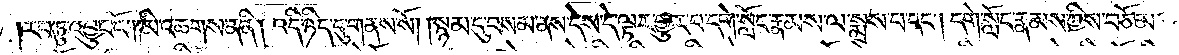།རབ་ཏུ་འབྱུང་ངོ༌། །མི་འཆགས་ན་ནི། འདི་ཉིད་དུ་གནས་སོ། །སྙམ་དུ་བསམ་ནས་དེས་དེ་ལྟར་གྱུར་པ་དགེ་སློང་རྣམས་ལ་སྨྲས་པ་དང༌། དགེ་སློང་རྣམས་ཀྱིས་བཅོམ་
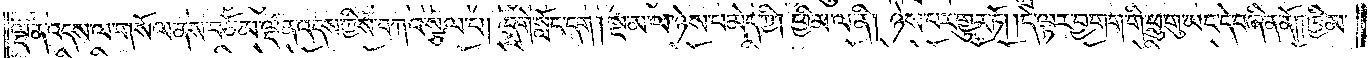ལྡན་འདས་ལ་གསོལ་ནས་བཅོམ་ལྡན་འདས་ཀྱིས་བཀའ་སྩལ་པ། དགེ་སློང་དག །སྔ་མ་ལ་ཉེས་པ་མེད་ཀྱི། ཕྱི་མ་ལ་ནི། ཉེས་པར་གྱུར་ཏོ། །དེ་ལྟར་བྱ་གག་གི་ཕྲུ་གུ་ཡང་དེ་བཞིན་ནོ། །ཁྱིམ་
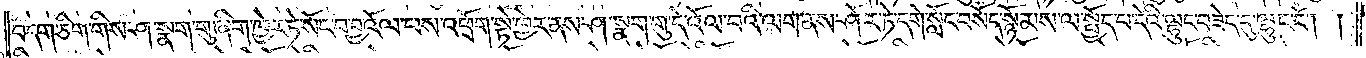བདག་ཅིག་གིས་ཤ་སྣག་གུ་ཞིག་ཁྱེར་ཏེ་སོང་བ་བྱ་འོལ་པས་འཕྲོག་སྟེ་ཁྱེར་ནས་ཤ་སྣག་གུ་དེ་འོལ་བའི་ལག་ནས་ཤོར་ཏེ་དགེ་སློང་བསོད་སྙོམས་ལ་སྤྱོད་པ་དེའི་ལྷུང་བཟེད་དུ་ལྷུང་ངོ༌། །
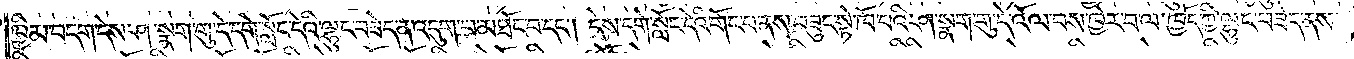ཁྱིམ་བདག་དེས་ཤ་སྣག་གུ་དེ་དགེ་སློང་དེའི་ལྷུང་བཟེད་ན་འདུག་པ་མཐོང་བ་དང༌། དེས་དགེ་སློང་དེའི་གོང་པ་ནས་བཟུང་སྟེ་ཁོ་པའི་ཤ་སྣག་གུ་དེ་འོལ་བས་ཁྱེར་བ་ལ་ཁྱོད་ཀྱི་ལྷུང་བཟེད་ནས་
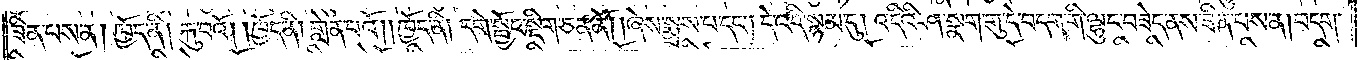ཟིན་པས་ན། ཁྱོད་ནི། རྐུ་བའོ། །ཁྱོད་ནི། གླེན་པའོ། །ཁྱོད་ནི། དགེ་སྦྱོང་སྡིག་ཅན་ནོ། །ཞེས་སྨྲས་པ་དང༌། དེ་འདི་སྙམ་དུ། འདིའི་ཤ་སྣག་གུ་དེ་བདག་གི་ལྷུང་བཟེད་ནས་ཟིན་པས་ན། བདག་
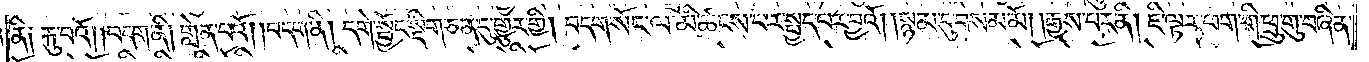ནི༑ རྐུ་བའོ། །བདག་ནི། གླེན་པའོ། །བདག་ནི། དགེ་སྦྱོང་སྡིག་ཅན་དུ་གྱུར་གྱི། བདག་སོང་ལ་མི་ཚངས་པར་སྤྱད་པར་བྱའོ། །སྙམ་དུ་བསམ་མོ། །རྒྱས་པར་ནི། ཇི་ལྟར་ཕག་གི་ཕྲུ་གུ་བཞིན་
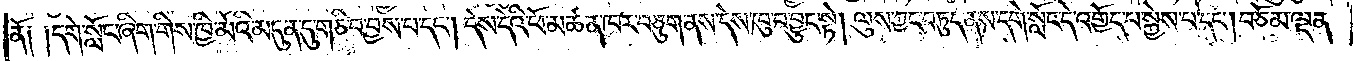ནོ༑ །དགེ་སློང་ཞིག་གིས་ཁྱི་མོའི་མདུན་དུ་གཅི་བ་བྱས་པ་དང༌། དེས་དེའི་ཕོ་མཚན་ཁར་བཅུག་ནས་དེས་ཁུ་བ་བྱུང་སྟེ། ལུས་ཀྱང་བཏུད་ནས་དགེ་སློང་དེ་འགྱོད་པ་སྐྱེས་པ་དང༌། བཅོམ་ལྡན་
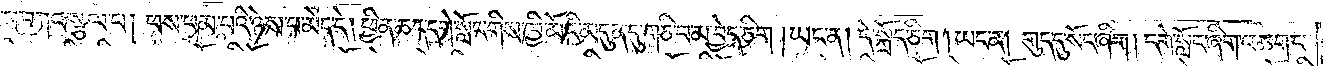འདས་ཀྱིས་བཀའ་སྩལ་པ། ཕས་ཕམ་པའི་ཉེས་པ་མེད་དེ། ཕྱིན་ཆད་དགེ་སློང་གིས་ཁྱི་མོའི་མདུན་དུ་གཅི་བ་མ་བྱེད་ཅིག །ཡང་ན། དེ་སྐྲོད་ཅིག །ཡང་ན། གུད་དུ་སོང་ཞིག །དགེ་སློང་ཞིག་འཆག་པ་
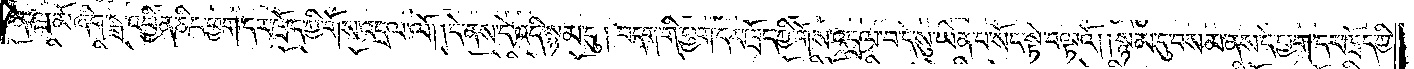ན་ཝ་མོ་ཞིག་སྒྲ་འབྱིན་ཅིང་ཕྱག་དར་ཁྲོད་ཀྱི་གོས་འདྲལ་ལོ། །དེ་ནས་དེ་འདི་སྙམ་དུ། བདག་གི་ཕྱག་དར་ཁྲོད་ཀྱི་གོས་འདྲལ་བ་དེ་སུ་ཡིན་པ་སོང་སྟེ་བལྟའོ། །སྙམ་དུ་བསམ་ནས་དེ་ཕྱག་དར་ཁྲོད་ཀྱི་
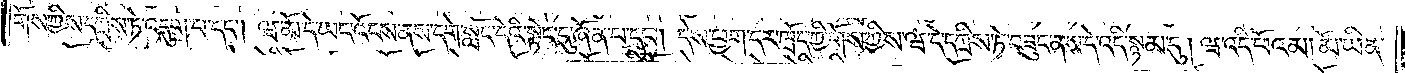གོས་ཀྱིས་དཀྲིས་ཏེ་འདུག་པ་དང༌། ཝ་མོ་དེ་ཡང་འོངས་ནས་དགེ་སློང་དེའི་སྟེང་དུ་ཞོན་པ་དང༌། དེས་ཕྱག་དར་ཁྲོད་ཀྱི་གོས་ཀྱིས་ཝ་དེ་དཀྲིས་ཏེ་བཟུང་ནས་དེ་འདི་སྙམ་དུ། ཝ་འདི་ཕོའམ། མོ་ཡིན་
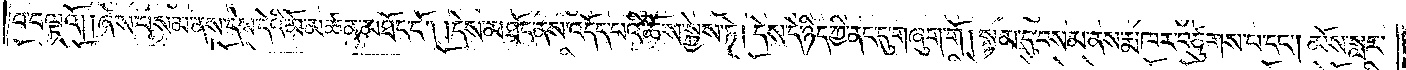པ་བལྟའོ། །ཞེས་བསམ་ནས་དེས་དེའི་མོ་མཚན་མཐོང་ངོ༌། །དེས་མཐོང་ནས་འདོད་པའི་ཆོས་སྐྱེས་ཏེ། དེས་དེ་ཉིད་ཀྱི་ནང་དུ་གཞུག་གོ །སྙམ་དུ་བསམ་ནས་རྨ་ཁར་བཙུགས་པ་དང༌། མོས་སླར་
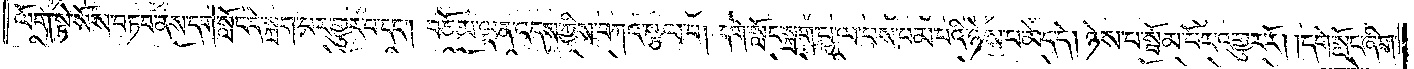ལོག་སྟེ་སོས་བཏབ་ནས་དགེ་སློང་དེ་སྐྲག་པར་གྱུར་པ་དང༌། བཅོམ་ལྡན་འདས་ཀྱིས་བཀའ་སྩལ་པ། དགེ་སློང་སྐྲག་པ་ལ་ཕས་ཕམ་པའི་ཉེས་པ་མེད་དེ། ཉེས་པ་སྤོམ་པོར་འགྱུར་རོ། །དགེ་སློང་ཞིག་
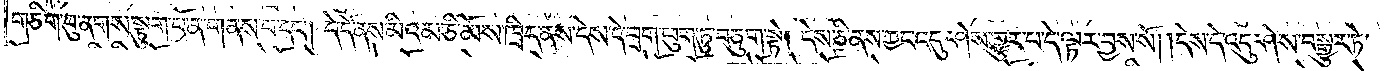གཅིག་བུ་ནགས་སྟུག་པོ་ན་གནས་པ་དང༌། དེ་དེ་ནས་མིའམ་ཅི་མོས་ཁྲིད་ནས་དེས་དེ་བྲག་ཕུག་ཏུ་བཅུག་སྟེ། དེས་ཅི་ནས་ཀྱང་འདུ་ཤེས་གྱུར་པ་དེ་ལྟར་བྱས་སོ། །དེས་དེ་འདུ་ཤེས་བསྒྱུར་ཏེ་
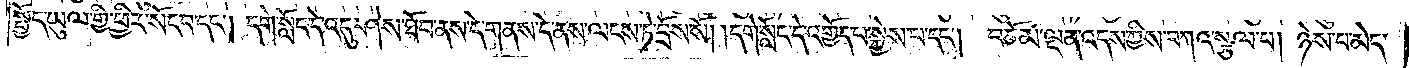སྤྱོད་ཡུལ་གྱི་ཕྱིར་སོང་བ་དང༌། དགེ་སློང་དེ་འདུ་ཤེས་ཐོབ་ནས་དེ་གནས་དེ་ནས་ལངས་ཏེ་བྲོས་སོ། །དགེ་སློང་དེ་འགྱོད་པ་སྐྱེས་པ་དང༌། བཅོམ་ལྡན་འདས་ཀྱིས་བཀའ་སྩལ་པ། ཉེས་པ་མེད་
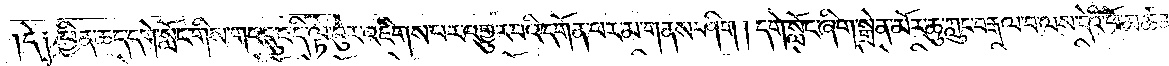དེ༑ ཕྱིན་ཆད་དགེ་སློང་གིས་གང་དུ་འདི་ལྟ་བུར་འཇིགས་པར་འགྱུར་བའི་དགོན་པར་མ་གནས་ཤིག །དགེ་སློང་ཞིག་སྒྲེན་མོར་ཆུ་ཀླུང་བརྒལ་བ་ལས་དེའི་ཕོ་མཚན་
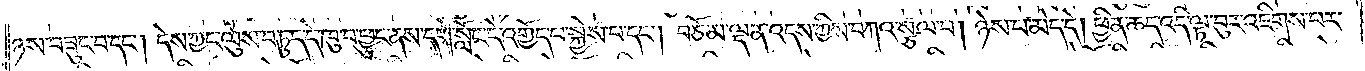ཉས་བཟུང་བ་དང༌། དེས་ཀྱང་ལུས་བཏུད་དེ་ཁུ་བ་ཕྱུང་ནས་དགེ་སློང་དེ་འགྱོད་པ་སྐྱེས་པ་དང༌། བཅོམ་ལྡན་འདས་ཀྱིས་བཀའ་སྩལ་པ། ཉེས་པ་མེད་དེ། ཕྱིན་ཆད་འདི་ལྟ་བུར་འཇིགས་པར་
